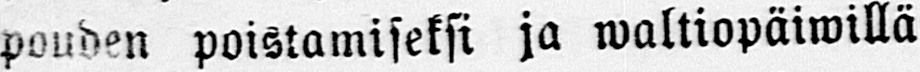pouden poistamiseksi ja waltiopäiwillä
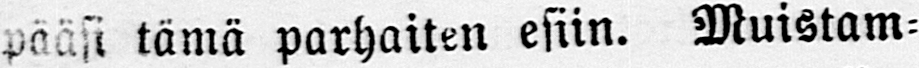pääsi tämä parhaiten esiin. Muistama-
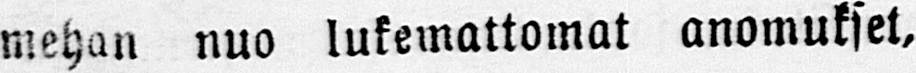mehan nuo lukemattomat anomukset,
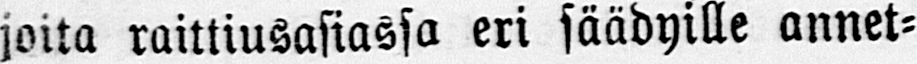joita raittiusasiassa eri säädyille annet-
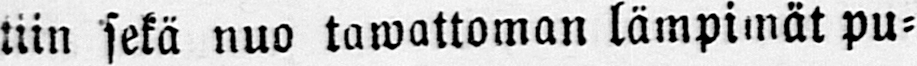tiin sekä nuo tawattoman lämpimät pu-
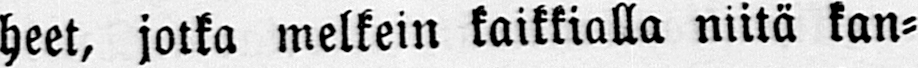heet, jotka melkein kaikkialla niitä kan-
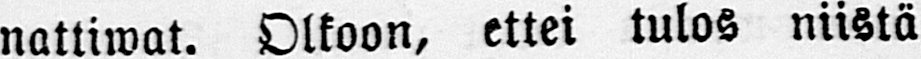nattiwat. Olkoon, ettei tulos niistä
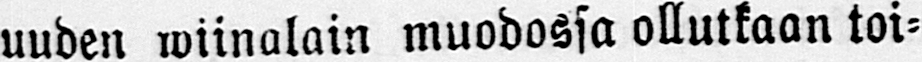uuden miinalain muodossa ollutkaan toi-
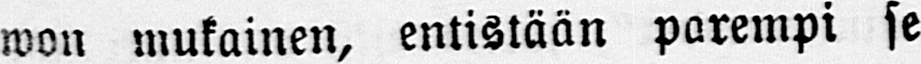won mukainen, entistään parempi se
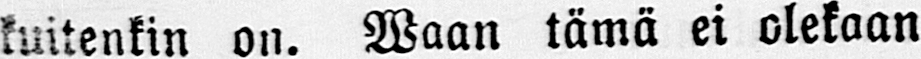kuitenkin on. Waan tämä ei olekaan
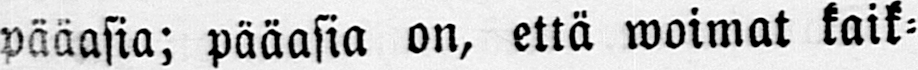pääasia; pääasia on, että woimat kaik-
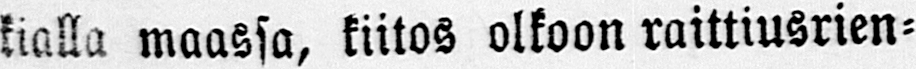kialla maassa, kiitos olkoon raittiusrien-
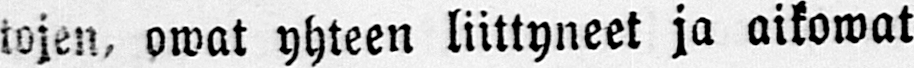tojen, owat yhteen liittyneet ja aikowat
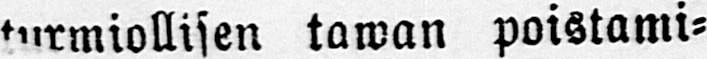wanhan turmiollisen tawan poistami-
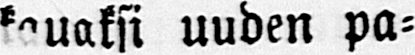sella ohjata kansan kauaksi uuden pa-
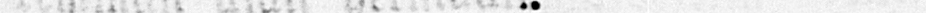remman ajan helmaan..
